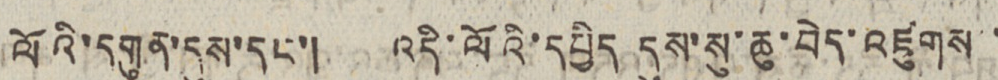ལོའི་དགུན་དུས་དང་། འདི་ལོའི་དཔྱིད དུས་སུ་ཆུ་བེད་འཛུགས་་
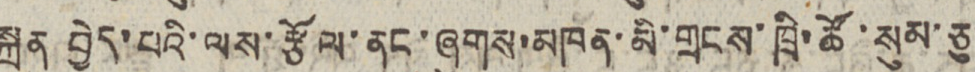སྐྲུན བྱེད་པའི་ལས་རྩོལ་ནང་ཞུགས་མཁན་མི་གྲངས་ཁྲི་ཚོ་སུམ་ཅུ་
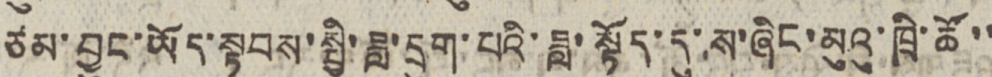ཙམ་བྱུང་ཡོད་སྟབས་སྤྱི་ཟླ་དྲུག་པའི་ཟླ་སྟོད་དུ་ས་ཞིང་མུའུ་ཁྲི་ཚོ་་
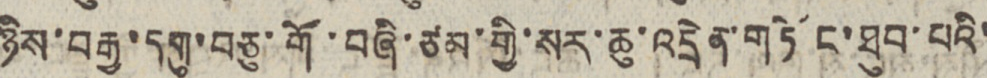ཉིས་བརྒྱ་དགུ་བཅུ་གོ་བཞི་ཙམ་གྱི་སར་ཆུ་འདྲེན་གཏོང་ཐུབ་པའི་
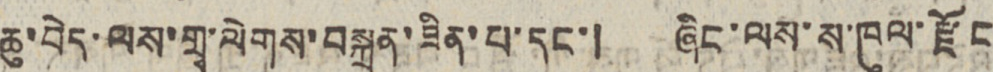ཆུ་བེད་ལས་གྲྭ་ལེགས་བསྐྲུན་ཟིན་པ་དང་། ཞིང་ལས་ས་ཁུལ་རྫོང
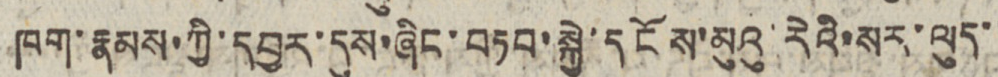ཁག་རྣམས་ཀྱི་དབྱར་དུས་ཞིང་བཏབ་སྐྱེ་དངོས་མུའུ་རེའི་སར་ལུད་་
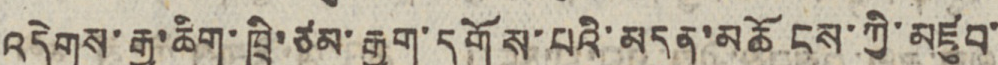འདེགས་རྒྱ་ཆིག་ཁྲི་ཙམ་རྒྱག་དགོས་པའི་མདུན་མཆོངས་ཀྱི་མཛུབ་
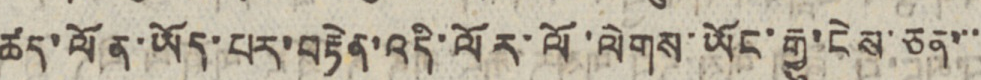ཚད་ལོན་ཡོད་པར་བརྟེན་འདི་ལོར་ལོ་ལེགས་ཡོང་རྒྱུ་ངེས་ཅན་་་་
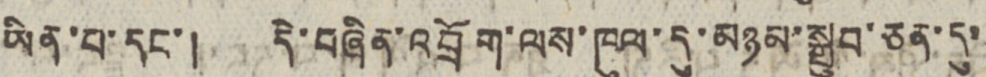ཡིན་པ་དང་། དེ་བཞིན་འབྲོག་ལས་ཁུལ་དུ་མཉམ་སྒྲུབ་ཅན་དུ་་
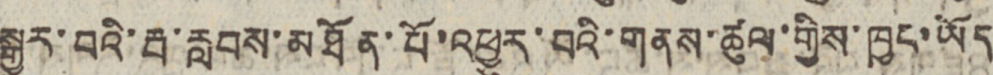སྐྱུར་བའི་རྦ་རླབས་མཐོན་པོ་འཕྱུར་བའི་གནས་ཚུལ་གྱིས་ཁྱང་ཡོད
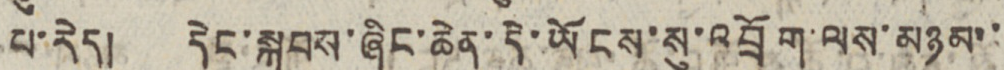པ་རེད། དེང་སྐབས་ཞིང་ཆེན་དེ་ཡོངས་སུ་འབྲོག་ལས་མཉམ་་
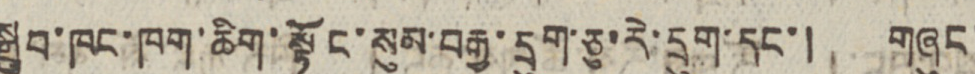སྒྲུབ་ཁང་ཁག་ཆིག་སྟོང་སུམ་བརྒྱ་དྲུག་ཅུ་རེ་དྲུག་དང་། གཞུང་
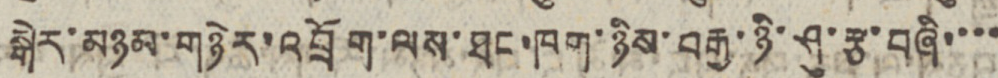སྒེར་མཉམ་གཉེར་འབྲོག་ལས་ཐང་ཁག་ཉིས་བརྒྱ་ཉི་ཤུ་རྩ་བཞི་་་་
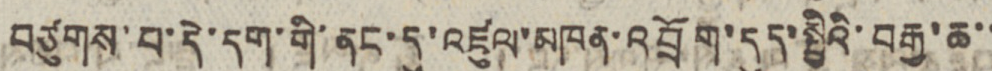བཙུགས་པ་དེ་དག་གི་ནང་དུ་འཛུལ་མཁན་འབྲོག་དུད་སྤྱིའི་བརྒྱ་ཆ་་
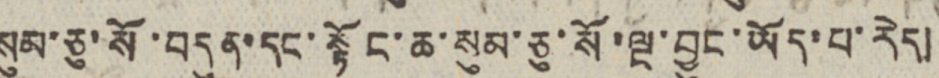སུམ་ཅུ་སོ་བདུན་དང་སྟོང་ཆ་སུམ་ཅུ་སོ་ལྔ་བྱུང་ཡོད་པ་རེད།
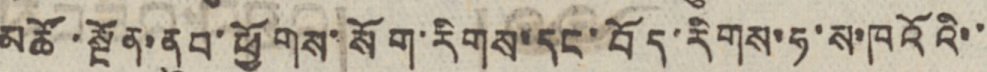མཚོ་སྔོན་ནུབ་ཕྱོགས་སོག་རིགས་དང་བོད་རིགས་ཧ་ས་ཁའོའི་་
